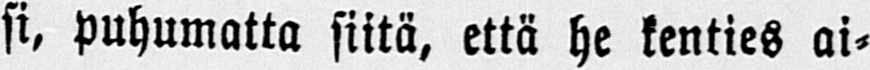si, puhumatta siitä, että he kenties ai-
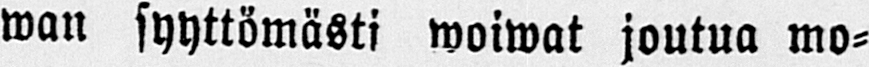wan syyttömästi woiwat joutua mo-
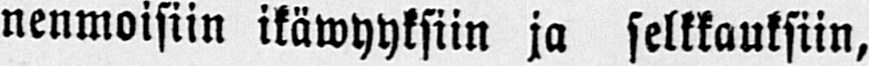nenmoisiin ikäwyyksiin ja selkkauksiin,
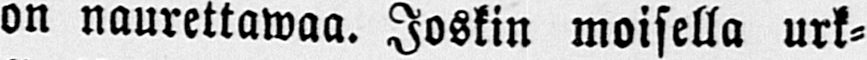on naurettawaa. Joskin moisella urk-
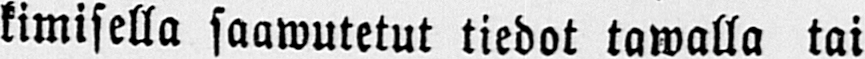kimisella saawutetut tiedot tawalla tai
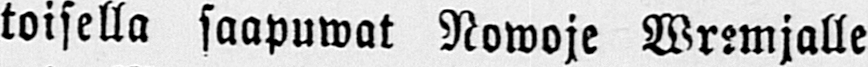toisella saapuwat Nowoje Wremjalle
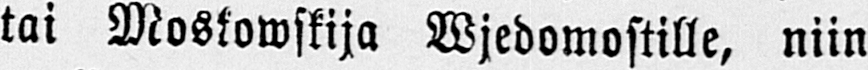tai Moskowskija Wjedomostille, niin
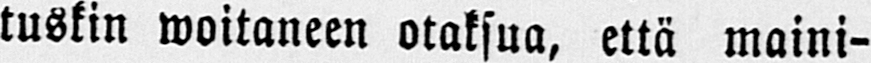tuskin woitaneen otaksua, että maini-
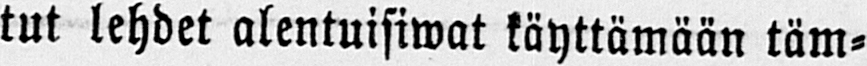tut lehdet alentuisiwat käyttämään täm-
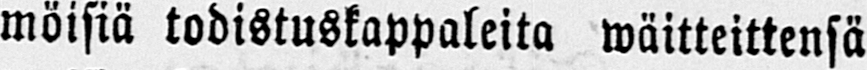möisiä todistuskappaleita wäitteittensä
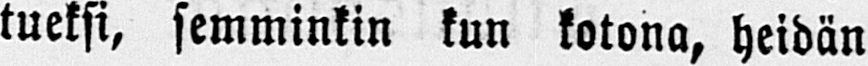tueksi, semminkin kun kotona, heidän
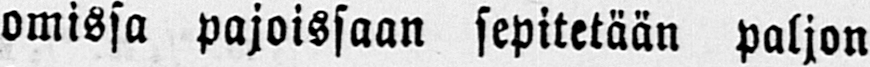omissa pajoissaan sepitetään paljon
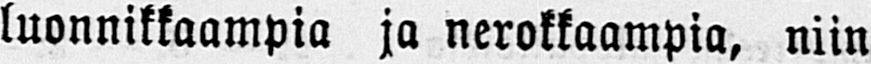luonnikkaampia ja nerokkaampia, niin
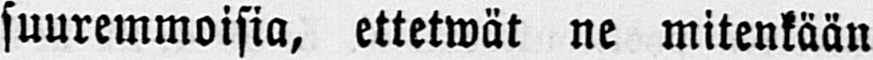suuremmoisia, ettetwät ne mitenkään
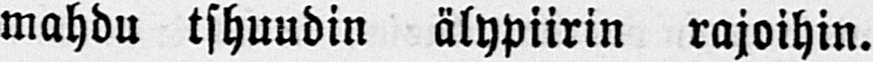mahdu tshuudin älypiirin rajoihin.
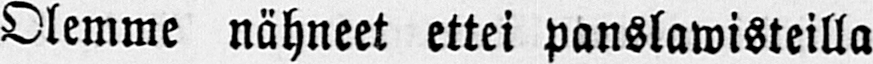Olemme nähneet ettei panslawisteilla
